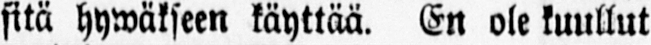sitä hywäkseen käyttää. En ole kuullut
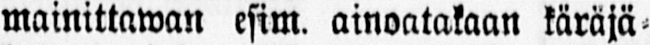mainittawan esim. ainoatakaan käräjä-
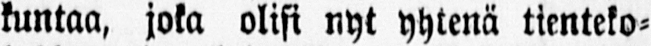kuntaa, joka olisi nyt yhtenä tienteko-
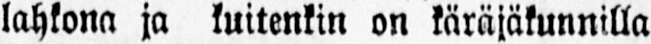lahkona ja kuitenkin on käräjäkunnilla
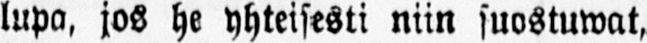lupa, jos he yhteisesti niin suostuwat,
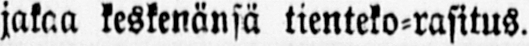jakaa keskenänsä tienteko-rasitus.
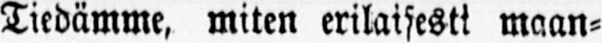Tiedämme, miten erilaisesti maan-
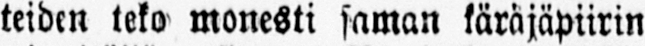teiden teko monesti saman käräjäpiirin
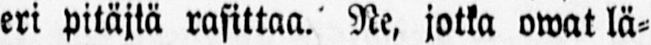eri pitäjiä rasittaa. Ne, jotka owat lä-
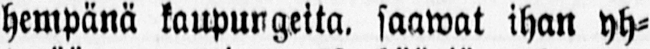hempänä kaupungeita, saawat ihan yh-
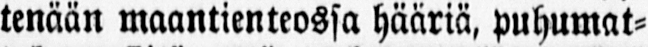tenään maantienteossa hääriä, puhumat-
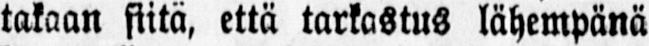takaan siitä, että tarkastus lähempänä
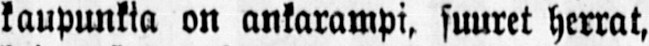kaupunkia on ankarampi, suuret herrat,
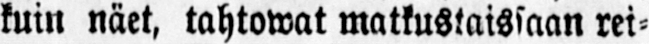kuin näet, tahtowat matkustaissaan rei-
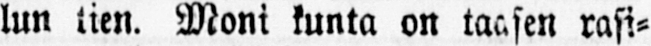lun tien. Moni kunta on taasen rasi-
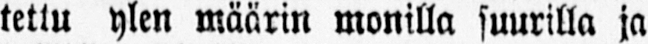tettu ylen määrin monilla suurilla ja
